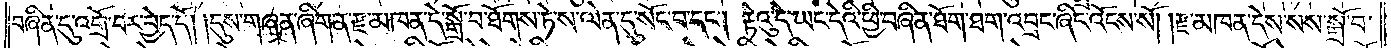བཞིན་དུ་འགྲོ་བར་བྱེད་དོ། །དུས་གཞན་ཞིག་ན་རྫ་མཁན་དེ་སྒྲོ་བ་ཐོགས་ཏེ་ས་ལེན་དུ་སོང་བ་དང༌། རྟེའུ་དེ་ཡང་དེའི་ཕྱི་བཞིན་ཐོག་ཐག་འབྲང་ཞིང་འོངས་སོ། །རྫ་མཁན་དེས་སས་སྒྲོ་བ་
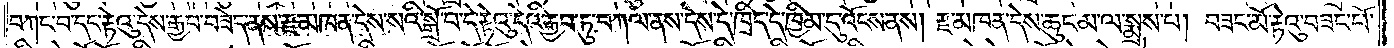བཀང་བ་དང་རྟེའུ་དེས་རྒྱབ་བཟེད་ནས་རྫ་མཁན་དེས་སའི་སྒྲོ་བ་དེ་རྟེའུ་དེའི་རྒྱབ་ཏུ་བཀལ་ནས་དེས་དེ་ཁྲིད་དེ་ཁྱིམ་དུ་འོངས་ནས། རྫ་མཁན་དེས་ཆུང་མ་ལ་སྨྲས་པ། བཟང་མོ་རྟེའུ་བཟང་པོ་
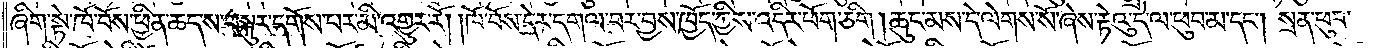ཞིག་སྟེ་ཁོ་བོས་ཕྱིན་ཆད་ས་བསྐུར་དགོས་པར་མི་འགྱུར་རོ། །ཁོ་བོས་དེར་དགལ་བར་བྱས་ཁྱོད་ཀྱིས་འདིར་ཕོག་ཅིག །ཆུང་མས་དེ་ལེགས་སོ་ཞེས་རྟེའུ་དེ་ལ་ཕུབ་མ་དང༌། སྲན་ཕུབ་
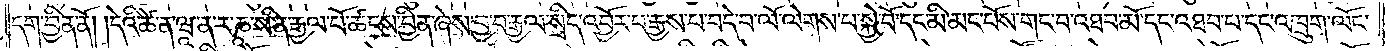དག་བྱིན་ནོ། །དེའི་ཚེ་ན་ཝཱ་ར་ཎཱ་སི་ན་རྒྱལ་པོ་ཚངས་བྱིན་ཞེས་བྱ་བ་རྒྱལ་སྲིད་འབྱོར་པ་རྒྱས་པ་བདེ་བ་ལོ་ལེགས་པ་སྐྱེ་བོ་དང་མི་མང་པོས་གང་བ་འཐབ་མོ་དང་འཐབ་པ་དང་འཁྲུག་ལོང་
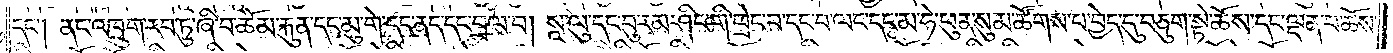དང༌། ནང་འཁྲུག་རབ་ཏུ་ཞི་བ་ཆོམ་རྐུན་དང་མུ་གེ་དང་ནད་དང་བྲལ་བ། སཱ་ལུ་དང་བུ་རམ་ཤིང་གི་ཕྲེང་བ་དང་བ་ལང་དང་མ་ཧེ་ཕུན་སུམ་ཚོགས་པ་བྱེད་དུ་བཅུག་སྟེ་ཆོས་དང་ལྡན་པ་ཆོས་
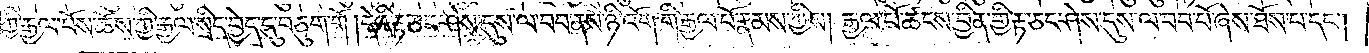ཀྱི་རྒྱལ་པོས་ཆོས་ཀྱི་རྒྱལ་སྲིད་བྱེད་དུ་བཅུག་གོ །དེའི་རྟ་ཅང་ཤེས་དུས་ལ་བབ་ནས་ཉི་འོག་གི་རྒྱལ་པོ་རྣམས་ཀྱིས། རྒྱལ་པོ་ཚངས་བྱིན་གྱི་རྟ་ཅང་ཤེས་དུས་ལ་བབ་པོ་ཞེས་ཐོས་པ་དང༌།
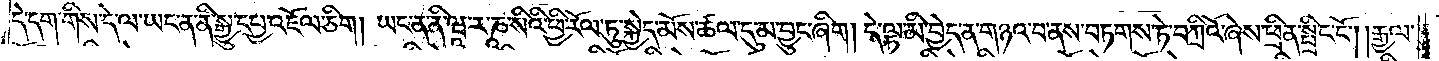དེ་དག་གིས་དེ་ལ་ཡང་ན་ནི་སྒྱུ་དཔྱ་འཇོལ་ཅིག །ཡང་ན་ནི་ཝཱ་རཱ་ཎཱ་སིའི་ཕྱི་རོལ་ཏུ་སྐྱེད་མོས་ཚལ་དུ་མ་བྱུང་ཞིག །དེ་ལྟ་མི་བྱེད་ན་གཉའ་བ་ནས་བཏགས་ཏེ་བཀྲིའོ་ཞེས་ཕྲིན་སྤྲིང་ངོ༌། །རྒྱལ་
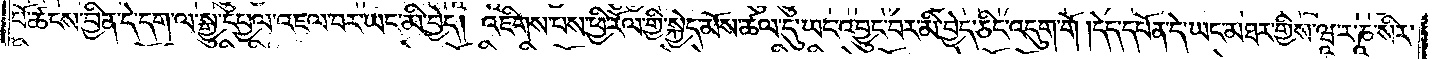པོ་ཚངས་བྱིན་དེ་དག་ལ་སྒྱུ་དཔྱལ་འཇལ་བར་ཡང་མི་བྱེད། འཇིགས་པས་ཕྱི་རོལ་གྱི་སྐྱེད་མོས་ཚལ་དུ་ཡང་འབྱུང་བར་མི་བྱེད་ཅིང་འདུག་གོ །དེད་དཔོན་དེ་ཡང་མཐར་གྱིས་ཝཱ་ར་ཎཱ་སིར་
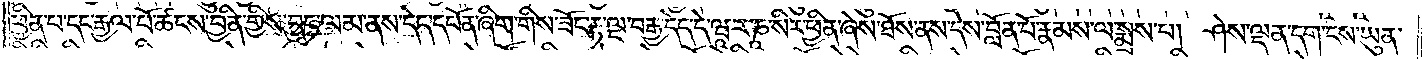ཕྱིན་པ་དང་རྒྱལ་པོ་ཚངས་བྱིན་གྱིས་བྱང་ལམ་ནས་དེད་དཔོན་ཞིག་གིས་ཟོང་རྟ་ལྔ་བརྒྱ་དེད་དེ་ཝཱ་ར་ཎཱ་སིར་ཕྱིན་ཞེས་ཐོས་ནས་དེས་བློན་པོ་རྣམས་ལ་སྨྲས་པ། ཤེས་ལྡན་དག་ངས་ཡུན་
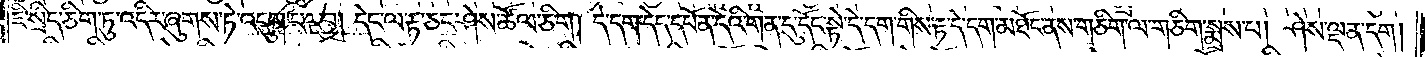ཇི་སྲིད་ཅིག་ཏུ་འདིར་ཞུགས་ཏེ་འདུག་པར་བྱ། དེང་ལ་རྟ་ཅང་ཤེས་ཚོལ་ཅིག །དེ་དག་དེད་དཔོན་དེའི་གན་དུ་དོང་སྟེ་དེ་དག་གིས་རྟ་དེ་དག་མཐོང་ནས་གཅིག་ལ་གཅིག་སྨྲས་པ། ཤེས་ལྡན་དག །
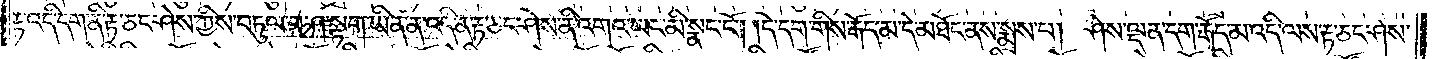རྟ་འདི་དག་ནི་རྟ་ཅང་ཤེས་ཀྱིས་བཏུལ་བ་ཤ་སྟག་ཡིན་ན་འདི་ན་རྟ་ཅང་ཤེས་ནི་འགའ་ཡང་མི་སྣང་ངོ༌། །དེ་དག་གིས་རྒོད་མ་དེ་མཐོང་ནས་སྨྲས་པ། ཤེས་ལྡན་དག་རྒོད་མ་འདི་ལས་རྟ་ཅང་ཤེས་
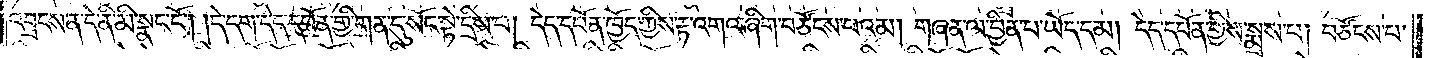འབྲངས་ན་དེ་ནི་མི་སྣང་ངོ༌། །དེ་དག་དེད་དཔོན་གྱི་གན་དུ་སོང་སྟེ་དྲིས་པ། དེད་དཔོན་ཁྱོད་ཀྱིས་རྟ་འགའ་ཞིག་བཙོངས་པའམ། གཞན་ལ་བྱིན་པ་ཡོད་དམ། དེད་དཔོན་གྱིས་སྨྲས་པ། བཙོངས་པ་
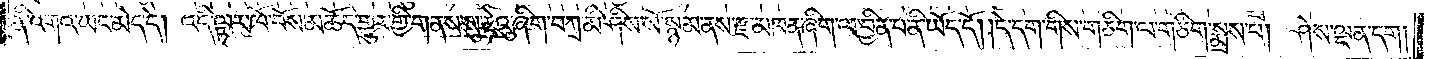ནི་འགའ་ཡང་མེད་དེ། འདི་ལྟར་ཁོ་བོས་མཆོད་གྱུར་གྱི་གནས་སུ་རྟེའུ་ཞིག་བཀྲ་མི་ཤིས་སོ་སྙམ་ནས་རྫ་མཁན་ཞིག་ལ་བྱིན་པ་ནི་ཡོད་དོ། །དེ་དག་གིས་གཅིག་ལ་གཅིག་སྨྲས་པ། ཤེས་ལྡན་དག།
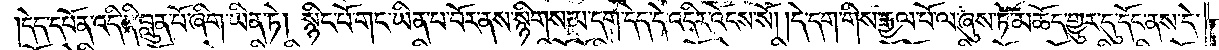དེད་དཔོན་འདི་ནི་བླུན་པོ་ཞིག་ཡིན་ཏེ། སྙིང་པོ་གང་ཡིན་པ་བོར་ནས་སྙིགས་མ་དག་དེད་དེ་འདིར་འོངས་སོ། །དེ་དག་གིས་རྒྱལ་པོ་ལ་ཞུས་ཏེ་མཆོད་གྱུར་དུ་དོང་ནས་དེ་
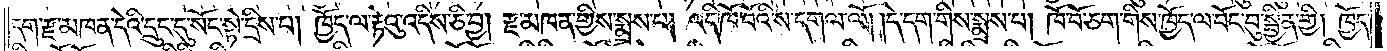དག་རྫ་མཁན་དེའི་དྲུང་དུ་སོང་སྟེ་དྲིས་པ། ཁྱོད་ལ་རྟེའུ་འདིས་ཅི་བྱ། རྫ་མཁན་གྱིས་སྨྲས་པ། འདི་ཁོ་བོའི་ས་དགལ་ལོ། །དེ་དག་གིས་སྨྲས་པ། ཁོ་བོ་ཅག་གིས་ཁྱོད་ལ་བོང་བུ་སྦྱིན་གྱི། ཁྱོད་
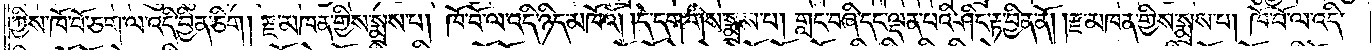ཀྱིས་ཁོ་བོ་ཅག་ལ་འདི་བྱིན་ཅིག །རྫ་མཁན་གྱིས་སྨྲས་པ། ཁོ་བོ་ལ་འདི་ཉིད་མཁོའོ། །དེ་དག་གིས་སྨྲས་པ། གླང་བཞི་དང་ལྡན་པའི་ཤིང་རྟ་བྱིན་ནོ། །རྫ་མཁན་གྱིས་སྨྲས་པ། ཁོ་བོ་ལ་འདི་
